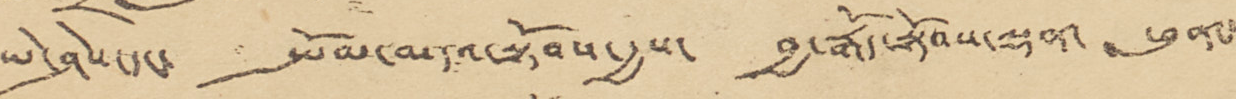ཡེ་ཤེས་དང་ སྤོམ་མདའ་སྟོབས་རྒྱས་ བྱ་རྒོད་སྟོབས་ལྡན་ ཕུན་་་
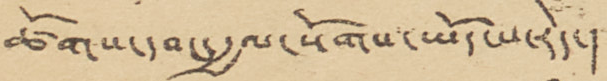ཚོགས་དབང་རྒྱལ་སོགས་ཡོད་པ་རེད་།
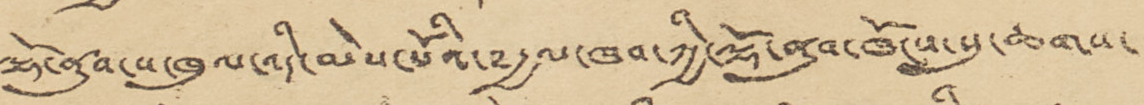ལྷོ་ནུབ་ས་ཁུལ་འདི་མེས་པོའི་༸རྒྱལ་ཁབ་ཀྱི་ལྷོ་ནུབ་ཁོངས་སུ་ཆགས་
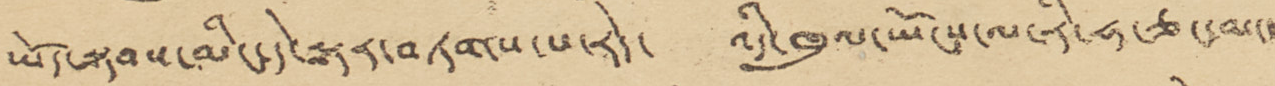ཡོད་སྟབས་མིང་དེ་ལྟར་བཏགས་པ་རེད་ འདི་ཁུལ་ཡོངས་ལ་རི་ཧ་ཅང་མང་
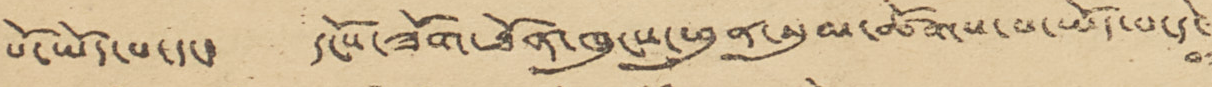པོ་ཡོད་པ་དང་ དངོས་ཟོག་ཐོན་ཁུངས་ཕུན་སུམ་ཚོགས་པ་ཡོད་པ་དེ་
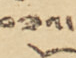བཟའ་
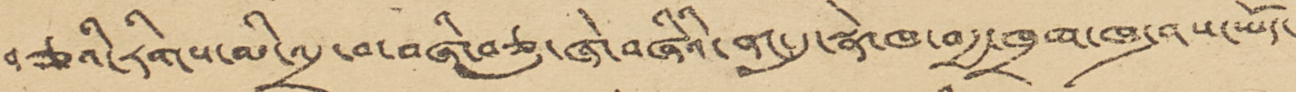བཅའི་རིགས་མི་འདྲ་བ་བཞི་བཅུ་ཞེ་བཞིའི་ནང་དུ་སྣེ་ཁ་བརྒྱ་ཁྲག་ཁ་ཤས་ཡོད་
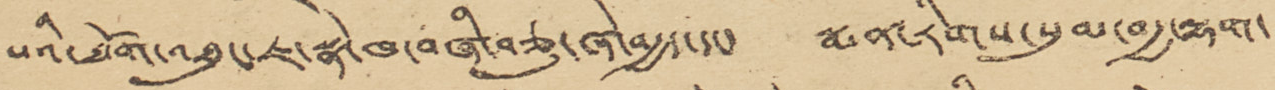པའི་ཐོག་འཐུང་ཇ་སྣ་ཁ་བཞི་བཅུ་ཞེ་བརྒྱད་དང་ སྨན་རིགས་སུམ་བརྒྱ་ལྷག་
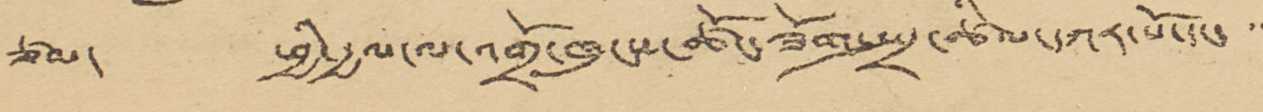ཙམ་ ཕྱི་རྒྱལ་ལ་འགྲོ་ཁུངས་ཚོང་ཟོག་སྤྲ་ཚིལ་དཀར་པོ་དང་ ་་
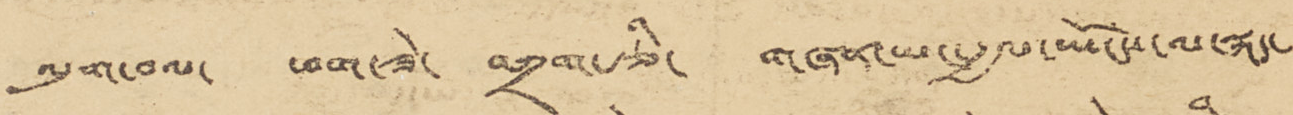ལུག་བལ་ ཕག་ཟེ་ བཀྲག་རྩི་ གཞན་ཡང་རྒྱལ་ཡོངས་ལ་སྐད་
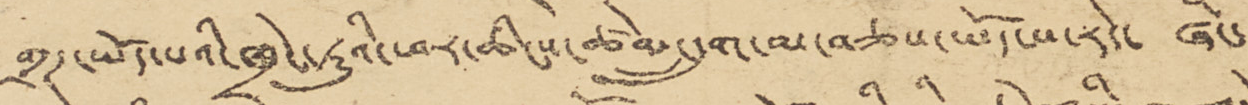གྲཊ་ཡོད་པའི་ཁྲེང་ཏུའི་བར་ཆིངས་ཚེམ་དྲུག་མ་བཅས་ཡོད་པ་རེད་ ཞིང་
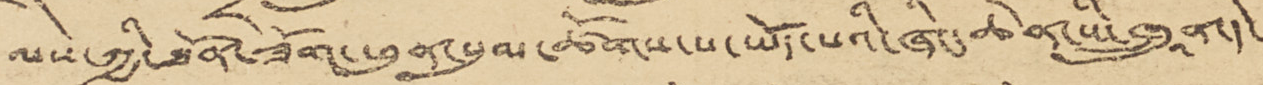ལས་ཀྱི་ཐོན་ཟོག་ཕུན་སུམ་ཚོགས་པ་ཡོད་པའི་ཞིང་ཆེན་སི་ཁྲུནཱ་དེ་
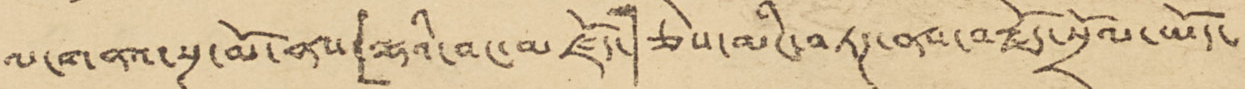ལ་གནའ་སྔ་མོ་ནས་「ལྷའི་བང་མཛོད་」ཅེས་མིང་བཏཊ་ནས་བརྗོད་སྲོལ་ཡོད་
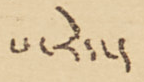པ་རེད་།
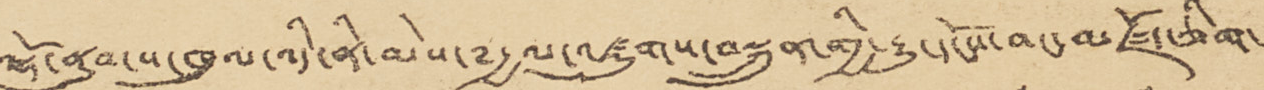ལྷོ་ནུབ་ས་ཁུལ་འདི་ནི་མེས་༸རྒྱལ་འཛུགས་བསྐྲུན་གྱི་རྒྱུ་དངོས་བང་མཛོད་ཅིག་
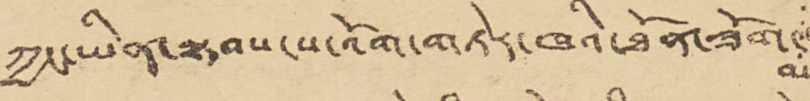ཀྱང་ཡིན་སྟབས་ས་འོག་གཏེར་ཁའི་ཐོན་ཟོག་
